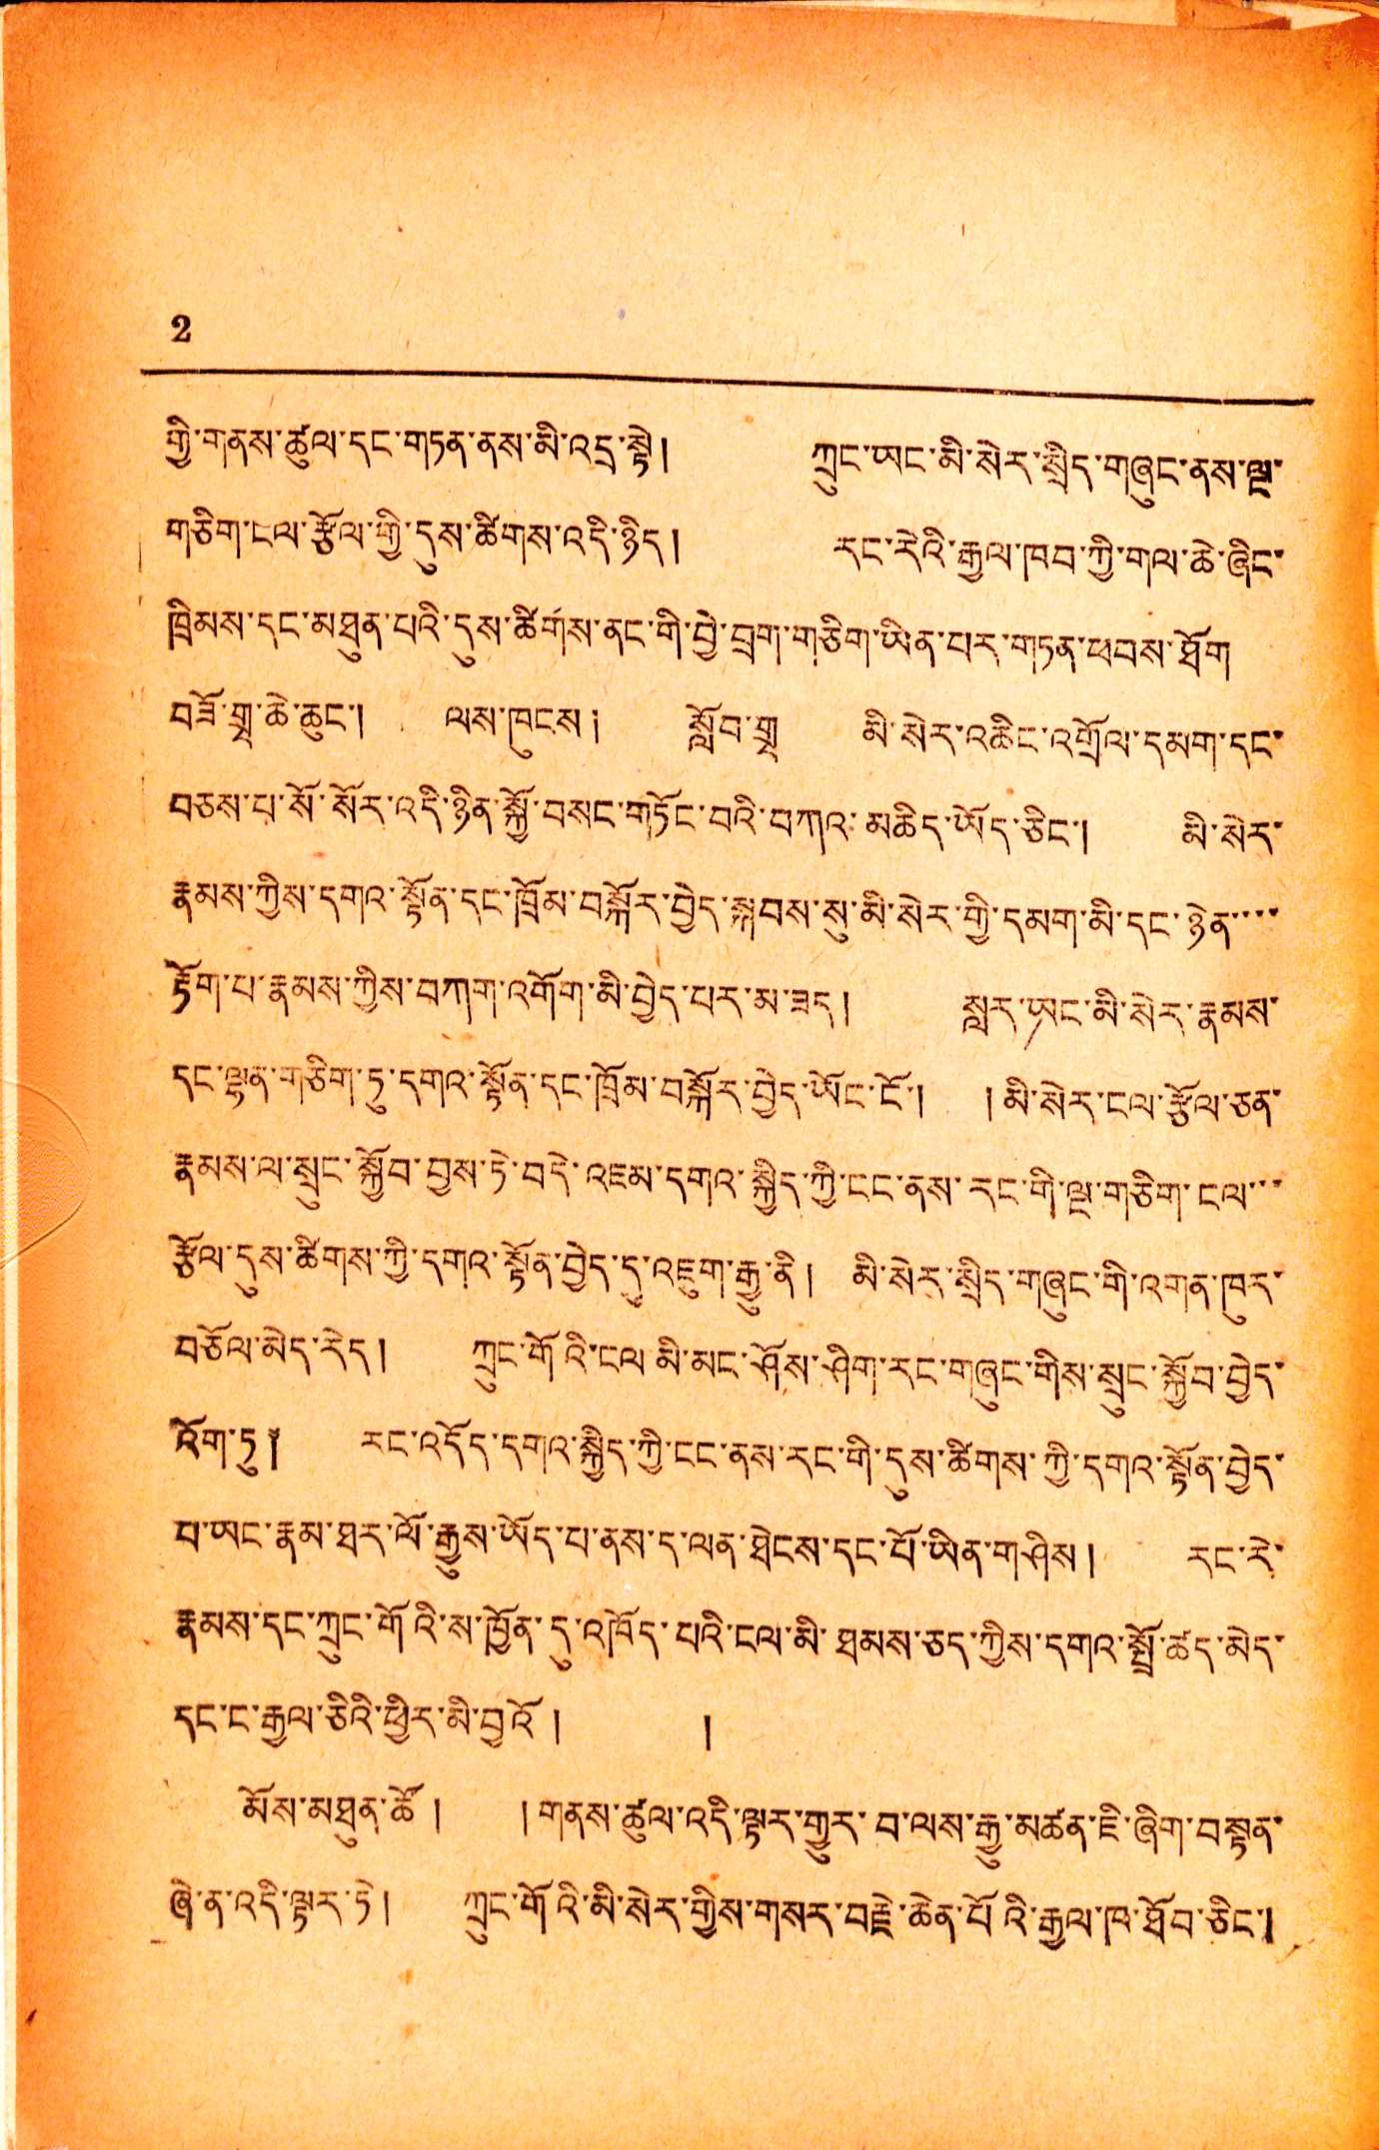2
གྱི་གནས་ཚུལ་དང་གཏན་ནས་མི་འདྲ་སྟེ། ཀྲུང་ཡང་མི་སེར་སྲིད་གཞུང་ནས་ལྔ་
གཅིག་ངལ་རྩོལ་གྱི་དུས་ཚིགས་འདི་ཉིད། རང་རེའི་རྒྱལ་ཁབ་ཀྱི་གལ་ཆེ་ཞིང་
ཁྲིམས་དང་མཐུན་པའི་དུས་ཚིགས་ནང་གི་བྱེ་བྲག་གཅིག་ཡིན་པར་གཏན་ཕབས་ཐོག
བཟོ་གྲྭ་ཆེ་ཆུང་། ལས་ཁུངས། སློབ་གྲྭ མི་སེར་འཆིང་འགྲོལ་དམག་དང་
བཅས་པ་སོ་སོར་འདི་ཉིན་སྐྱོ་བསང་གཏོང་བའི་བཀའ་མཆིད་ཡོད་ཅིང་། མི་སེར་
རྣམས་ཀྱི་དགའ་སྟོན་དང་ཁྲོམ་བསྐོར་བྱེད་སྐབས་སུ་མི་སེར་གྱི་དམག་མི་དང་ཉིན་་་་
རྟོག་ལ་རྣམས་ཀྱིས་བཀས་འགོག་མི་བྱེད་པར་མ་ཟད། སླར་ཡང་མི་སེར་རྣམས་
དང་ལྷན་གཅིག་ཏུ་དགའ་སྟོན་དང་ཁྲོམ་བསྐོར་བྱེད་ཡོང་ངོ་། །མི་སེར་ངལ་རྩོལ་ཅན་
རྣམས་ལ་སྲུང་སྐྱོབ་བྱས་ཏེ་བདེ་འཇམ་དགའ་སྐྱིད་ཀྱི་ངང་ནས་རང་གི་ལྔ་གཅིག་ངལ་་་
རྩོམ་དུས་ཚིགས་ཀྱི་དགའ་སྟོན་བྱེད་དུ་འཇུག་རྒྱུ་ནི། མི་སེར་སྲིད་གཞུང་གི་འགན་ཁུར་
བཅོལ་མེད་རེད། ཀྲུང་གོའི་ངལ་མི་མང་ཤོས་ཤིག་རང་གཞུང་གིས་སྲུང་སྐྱོབ་བྱེད་
འོག་ཏུ༈ རང་འདོད་དགའ་སྐྱིད་ཀྱི་ངང་ནས་རང་གི་དུས་ཚིགས་ཀྱི་དགའ་སྟོན་བྱེད་
པ་ཡང་རྣམ་ཐར་ལོ་རྒྱུས་ཡོད་པ་ནས་ད་ལན་ཐེངས་དང་པོ་ཡིན་གཤིས། རང་རེ་
རྣམས་དང་ཀྲུང་གོའི་ས་ཁྱོན་དུ་འཁོད་པའི་ངལ་མི་ཐམས་ཐད་ཀྱིས་དགའ་སྤྲོ་ཚད་མེད་
དང་ང་རྒྱལ་ཅིའི་ཕྱིར་མི་བྱའོ ། །
མོས་མཐུན་ཚོ ། །གནས་ཚུལ་འདི་ལྟར་གྱུར་པ་ལས་རྒྱུ་མཚན་ཇི་ཞིག་བསྟན་
ཞེ་ན་འདི་ལྟར་ཏེ། ཀྲུང་གོའི་མི་སེར་གྱིས་གསར་བརྗེ་ཆེན་པོའི་རྒྱལ་ཁ་ཐོབ་ཅིང་།
